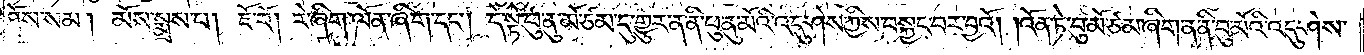ཐོས་སམ། མོས་སྨྲས་པ། ཇོ་བོ། རེ་ཞིག་ལོན་ཞིག་དང༌། དེ་སྟེ་ཕུ་ནུ་མོ་ཙམ་དུ་གྱུར་ན་ནི་ཕུ་ནུ་མོའི་འདུ་ཤེས་ཀྱིས་བསྐྱང་བར་བྱའོ། །འོན་ཏེ་བུ་མོ་ཙམ་ཞིག་ན་ནི་བུ་མོའི་འདུ་ཤེས་
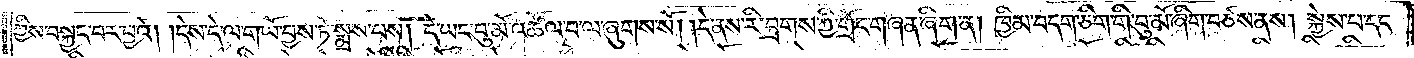ཀྱིས་བསྐྱང་བར་བྱའོ། །དེས་དེ་ལ་གཡོ་བྱས་ཏེ་སྨྲས་པས། དེ་ཡང་བུ་མོ་འཚོལ་བ་ལ་ཞུགས་སོ། །དེ་ནས་རི་བྲགས་ཀྱི་གྲོང་གཞན་ཞིག་ན། ཁྱིམ་བདག་ཅིག་གི་བུ་མོ་ཞིག་བཙས་ནས། སྐྱེས་པ་དང་
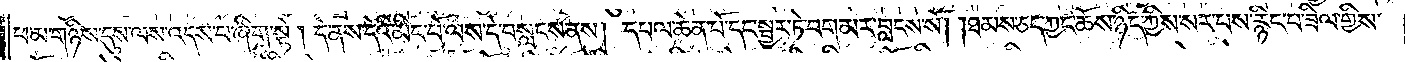ཕ་མ་གཉིས་དུས་ལས་འདས་པ་ཞིག་སྟེ། དེ་ནས་དེའི་མིང་པོ་ལས་དེ་བསླངས་ནས། དཔལ་ཆེན་པོ་དང་སྦྱར་ཏེ་བག་མར་བླངས་སོ། །ཐམས་ཅད་ཀྱང་ཆོས་ཉིད་ཀྱིས་སར་པས་རྙིང་པ་ཟིལ་གྱིས་
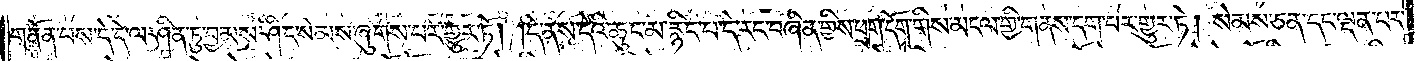གནོན་པས་དེ་དེ་ལ་ཤིན་ཏུ་བྱམས་ཤིང་སེམས་ཞུགས་པར་གྱུར་ཏོ། །དེ་ནས་དེའི་ཆུང་མ་རྙིང་པ་དེ་རང་བཞིན་གྱིས་ཕྲག་དོག་གིས་མངལ་གྱི་གནས་དག་པར་གྱུར་ཏེ། སེམས་ཅན་དང་ལྡན་པར་
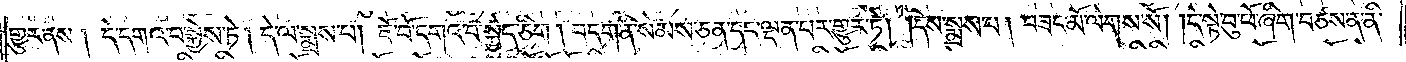གྱུར་ནས། དེ་དགའ་བ་སྐྱེས་ཏེ། དེ་ལ་སྨྲས་པ། ཇོ་བོ་དགའ་བ་སྐྱེད་ཅིག །བདག་ནི་སེམས་ཅན་དང་ལྡན་པར་གྱུར་ཏེ། །དེས་སྨྲས་པ། བཟང་མོ་ལེགས་སོ། །དེ་སྟེ་བུ་ཕོ་ཞིག་བཙས་ན་ནི་
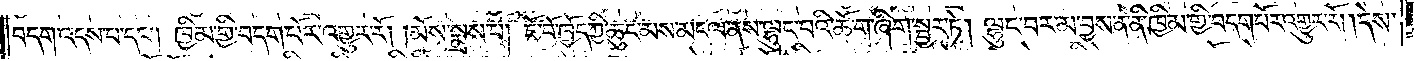བདག་འདས་པ་དང༌། ཁྱིམ་གྱི་བདག་པོར་འགྱུར་རོ། །མོས་སྨྲས་པ། ཇོ་བོ་ཁྱོད་ཀྱི་ཆུང་མས་མངལ་ནས་ལྷུང་བའི་ཆོ་ག་ཞིག་སྦྱར་ཏེ། ལྷུང་བར་མ་བྱས་ན་ནི་ཁྱིམ་གྱི་བདག་པོར་འགྱུར་རོ། །དེས་
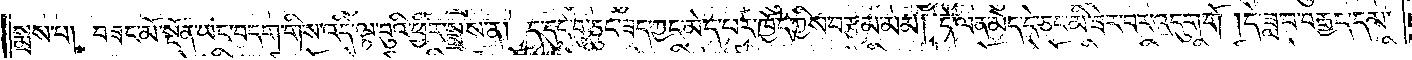སྨྲས་པ། བཟང་མོ་སྔོན་ཡང་བདག་གིས་འདི་ལྟ་བུའི་ཕྱིར་སྨྲས་ན། ད་དུང་བུ་ཅུང་ཟད་ཀྱང་མེད་པར་ཁྱོད་ཀྱིས་བརྩམ་མམ། དེ་ལན་མེད་དེ་ཅང་མི་ཟེར་བར་འདུག་གོ །དེ་ཟླ་བ་བརྒྱད་དམ་
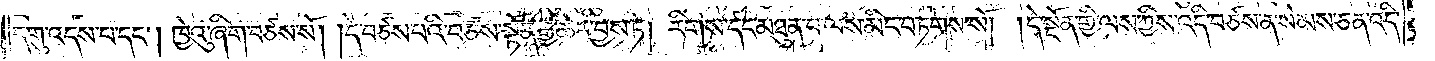དགུ་འདས་པ་དང༌། ཁྱེའུ་ཞིག་བཙས་སོ། །དེ་བཙས་པའི་བཙས་སྟོན་རྒྱ་ཆེར་བྱས་ཏེ། རིགས་དང་མཐུན་པ་ལས་མིང་བཏགས་སོ། །དེ་སྔོན་གྱི་ལས་ཀྱིས་འདི་བཙས་ན་སེམས་ཅན་འདི་
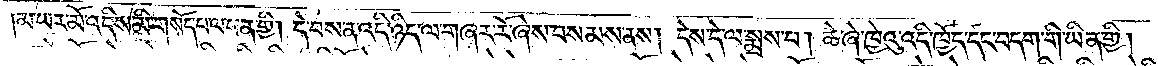མ་ཡར་མོ་འདིས་མི་གསོད་པ་ལ་པན་གྱི། དེ་བས་ན་འདི་ཉིད་ལ་གཞར་རོ་ཞེས་བསམས་ནས། དེས་དེ་ལ་སྨྲས་པ། ཆེ་ཞེ་ཁྱེའུ་འདི་ཁྱོད་དང་བདག་གི་ཡིན་གྱི།
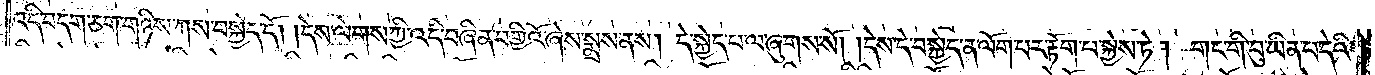འདི་བདག་ཅག་གཉིས་ཀས་བསྐྱེད་དོ། །དེས་ལེགས་ཀྱི་འདི་བཞིན་བགྱིའོ་ཞེས་སྨྲས་ནས། དེ་སྐྱེད་པ་ལ་ཞུགས་སོ། །དེས་དེ་བསྐྱེད་ན་ལོག་པར་རྟོག་པ་སྐྱེས་ཏེ། གང་གི་བུ་ཡིན་པ་དེའི་
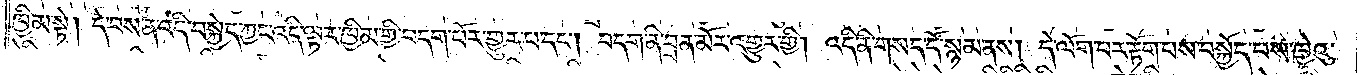ཁྱིམ་སྟེ། དེ་བས་ན་འདི་བསྐྱེད་ཀྱང་འདི་ལྟར་ཁྱིམ་གྱི་བདག་པོར་གྱུར་པ་དང༌། བདག་ནི་བྲན་མོར་འགྱུར་གྱི། འདི་ནི་གསད་དོ་སྙམ་ནས། དེ་ལོག་པར་རྟོག་པས་བསྐྱོད་པས་ཁྱེའུ་
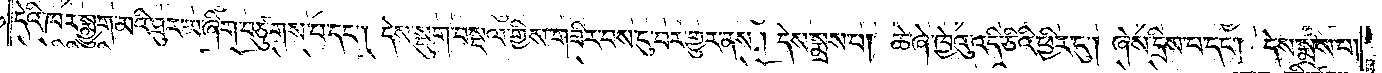དེའི་ཁར་སྨྱུག་མའི་ཐུར་མ་ཞིག་བཙུགས་པ་དང༌། དེས་སྡུག་བསྔལ་གྱིས་གཟིར་བས་ངུ་བར་གྱུར་ནས། དེས་སྨྲས་པ། ཆེ་ཞེ་ཁྱེའུ་འདི་ཅིའི་ཕྱིར་དུ། ཞེས་དྲིས་པ་དང༌། དེས་སྨྲས་པ།
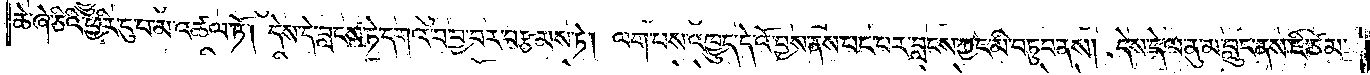ཆེ་ཞེ་ཅིའི་ཕྱིར་དུ་བ་མ་འཚལ་ཏོ། དེས་དེ་བླངས་ཏེ་དགའ་བ་བྱ་བར་བརྩམས་ཏེ། ལག་པས་འཁྱུད་དེ་འོ་བྱས་ནས་པང་པར་བླངས་ཀྱང་མི་བཏུབ་ནས། དེས་དེ་ལ་ནུ་མ་བླུང་ནས་ཇི་ཙམ་
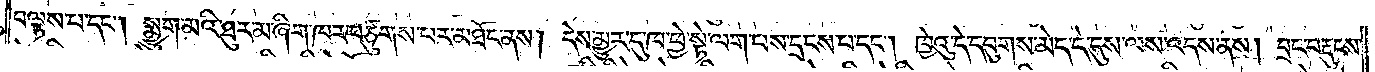བལྟས་པ་དང༌། སྨྱུག་མའི་ཐུར་མ་ཞིག་ཁར་བཙུགས་པར་མཐོང་ནས། དེས་མྱུར་དུ་ཁ་ཕྱེ་སྟེ་ལག་པས་དྲངས་པ་དང༌། ཁྱེའུ་དེ་དབུགས་མེད་དེ་དུས་ལས་འདས་ནས། བྲང་བརྡུངས་
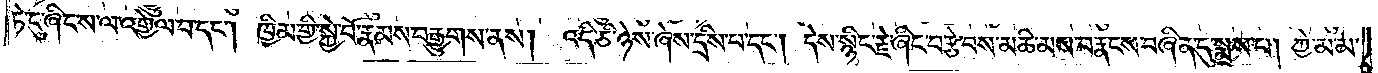ཏེ་ངུ་ཞིང་ས་ལ་འགྱེལ་བ་དང༌། ཁྱིམ་གྱི་སྐྱེ་བོ་རྣམས་བརྒྱུགས་ནས། འདི་ཅི་ཉེས་ཞེས་དྲིས་པ་དང༌། དེས་སྙིང་རྗེ་ཞིང་བརྩེ་བས་མཆི་མས་བརྣངས་བཞིན་དུ་སྨྲས་པ། ཀྱེ་མ་མ་
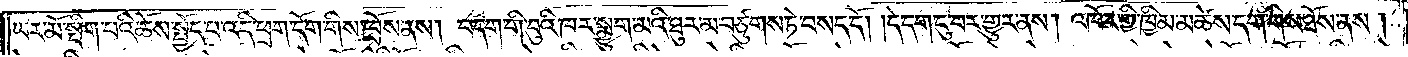ཡར་མོ་སྡིག་པའི་ཆོས་སྤྱོད་པ་འདི་ཕྲག་དོག་གིས་ཁྲོས་ནས། བདག་གི་བུའི་ཁར་སྨྱུག་མའི་ཐུར་མ་བཙུགས་ཏེ་བསད་དོ། །དེ་དག་ངུ་བར་གྱུར་ནས། འཁོར་གྱི་ཁྱིམ་མཚེས་དག་གིས་ཐོས་ནས།
